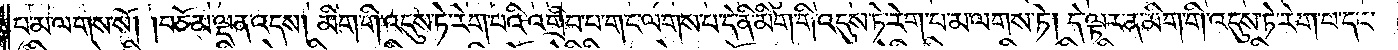པ་མ་ལགས་སོ། །བཅོམ་ལྡན་འདས། མིག་གི་འདུས་ཏེ་རེག་པའི་འགྲིབ་པ་གང་ལགས་པ་དེ་ནི་མིག་གི་འདུས་ཏེ་རེག་པ་མ་ལགས་ཏེ། དེ་ལྟར་ན་མིག་གི་འདུས་ཏེ་རེག་པ་དང་
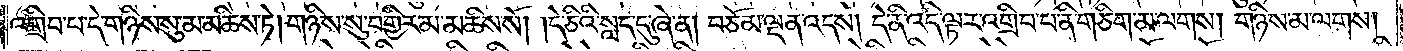འགྲིབ་པ་དེ་གཉིས་སུ་མ་མཆིས་ཏེ། གཉིས་སུ་བགྱིར་མ་མཆིས་སོ། །དེ་ཅིའི་སླད་དུ་ཞེ་ན། བཅོམ་ལྡན་འདས། དེ་ནི་འདི་ལྟར་འགྲིབ་པ་ནི་གཅིག་མ་ལགས། གཉིས་མ་ལགས།
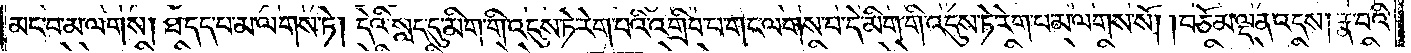མང་བ་མ་ལགས། ཐ་དད་པ་མ་ལགས་ཏེ། དེའི་སླད་དུ་མིག་གི་འདུས་ཏེ་རེག་པའི་འགྲིབ་པ་གང་ལགས་པ་དེ་མིག་གི་འདུས་ཏེ་རེག་པ་མ་ལགས་སོ། །བཅོམ་ལྡན་འདས། རྣ་བའི་
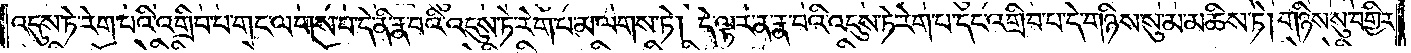འདུས་ཏེ་རེག་པའི་འགྲིབ་པ་གང་ལགས་པ་དེ་ནི་རྣ་བའི་འདུས་ཏེ་རེག་པ་མ་ལགས་ཏེ། དེ་ལྟར་ན་རྣ་བའི་འདུས་ཏེ་རེག་པ་དང་འགྲིབ་པ་དེ་གཉིས་སུ་མ་མཆིས་ཏེ། གཉིས་སུ་བགྱིར་
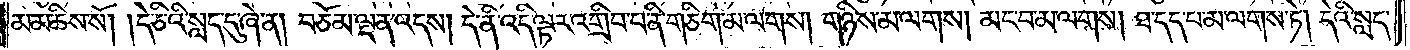མ་མཆིས་སོ། །དེ་ཅིའི་སླད་དུ་ཞེ་ན། བཅོམ་ལྡན་འདས། དེ་ནི་འདི་ལྟར་འགྲིབ་པ་ནི་གཅིག་མ་ལགས། གཉིས་མ་ལགས། མང་བ་མ་ལགས། ཐ་དད་པ་མ་ལགས་ཏེ། དེའི་སླད་
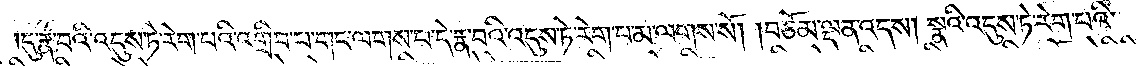དུ་རྣ་བའི་འདུས་ཏེ་རེག་པའི་འགྲིབ་པ་གང་ལགས་པ་དེ་རྣ་བའི་འདུས་ཏེ་རེག་པ་མ་ལགས་སོ། །བཅོམ་ལྡན་འདས། སྣའི་འདུས་ཏེ་རེག་པའི་
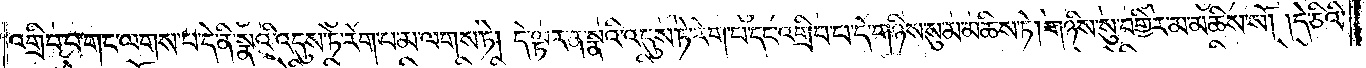འགྲིབ་པ་གང་ལགས་པ་དེ་ནི་སྣའི་འདུས་ཏེ་རེག་པ་མ་ལགས་ཏེ། དེ་ལྟར་ན་སྣའི་འདུས་ཏེ་རེག་པ་དང་འགྲིབ་པ་དེ་གཉིས་སུ་མ་མཆིས་ཏེ། གཉིས་སུ་བགྱིར་མ་མཆིས་སོ། །དེ་ཅིའི་
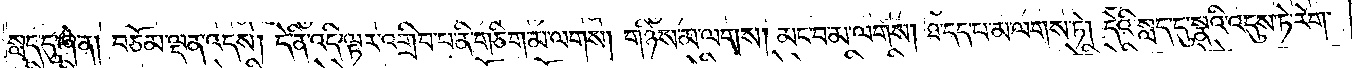སླད་དུ་ཞེ་ན། བཅོམ་ལྡན་འདས། དེ་ནི་འདི་ལྟར་འགྲིབ་པ་ནི་གཅིག་མ་ལགས། གཉིས་མ་ལགས། མང་བ་མ་ལགས། ཐ་དད་པ་མ་ལགས་ཏེ། དེའི་སླད་དུ་སྣའི་འདུས་ཏེ་རེག་
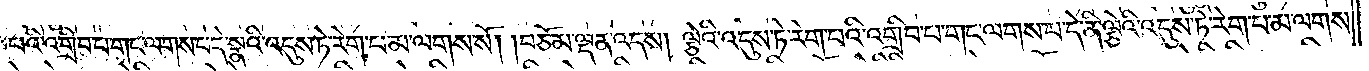པའི་འགྲིབ་པ་གང་ལགས་པ་དེ་སྣའི་འདུས་ཏེ་རེག་པ་མ་ལགས་སོ། ། བཅོམ་ལྡན་འདས། ལྕེའི་འདུས་ཏེ་རེག་པའི་འགྲིབ་པ་གང་ལགས་པ་དེ་ནི་ལྕེའི་འདུས་ཏེ་རེག་པ་མ་ལགས་
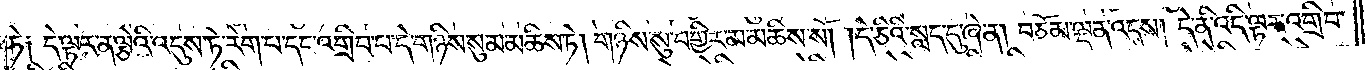ཏེ༑ དེ་ལྟར་ན་ལྕེའི་འདུས་ཏེ་རེག་པ་དང་འགྲིབ་པ་དེ་གཉིས་སུ་མ་མཆིས་ཏེ། གཉིས་སུ་བགྱིར་མ་མཆིས་སོ། །དེ་ཅིའི་སླད་དུ་ཞེ་ན། བཅོམ་ལྡན་འདས། དེ་ནི་འདི་ལྟར་འགྲིབ་
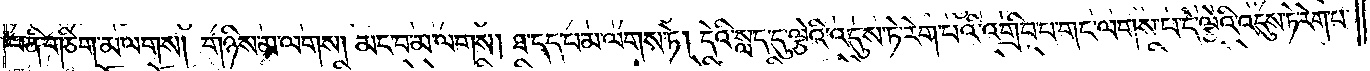པ་ནི་གཅིག་མ་ལགས། གཉིས་མ་ལགས། མང་བ་མ་ལགས། ཐ་དད་པ་མ་ལགས་ཏེ། དེའི་སླད་དུ་ལྕེའི་འདུས་ཏེ་རེག་པའི་འགྲིབ་པ་གང་ལགས་པ་དེ་ལྕེའི་འདུས་ཏེ་རེག་པ་
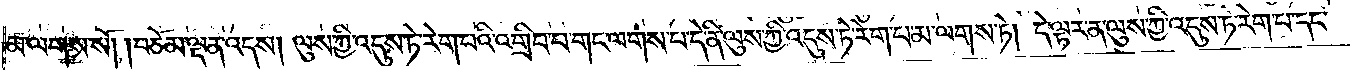མ་ལགས་སོ། །བཅོམ་ལྡན་འདས། ལུས་ཀྱི་འདུས་ཏེ་རེག་པའི་འགྲིབ་པ་གང་ལགས་པ་དེ་ནི་ལུས་ཀྱི་འདུས་ཏེ་རེག་པ་མ་ལགས་ཏེ། དེ་ལྟར་ན་ལུས་ཀྱི་འདུས་ཏེ་རེག་པ་དང་
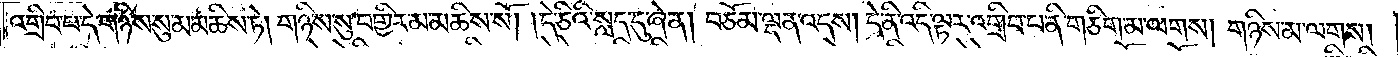འགྲིབ་པ་དེ་གཉིས་སུ་མ་མཆིས་ཏེ། གཉིས་སུ་བགྱིར་མ་མཆིས་སོ། །དེ་ཅིའི་སླད་དུ་ཞེ་ན། བཅོམ་ལྡན་འདས། དེ་ནི་འདི་ལྟར་འགྲིབ་པ་ནི་གཅིག་མ་ལགས། གཉིས་མ་ལགས།
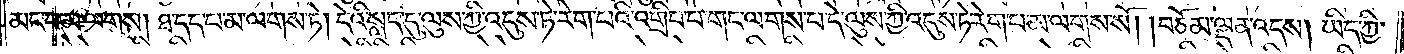མང་བ་མ་ལགས། ཐ་དད་པ་མ་ལགས་ཏེ། དེའི་སླད་དུ་ལུས་ཀྱི་འདུས་ཏེ་རེག་པའི་འགྲིབ་པ་གང་ལགས་པ་དེ་ལུས་ཀྱི་འདུས་ཏེ་རེག་པ་མ་ལགས་སོ། །བཅོམ་ལྡན་འདས། ཡིད་ཀྱི་
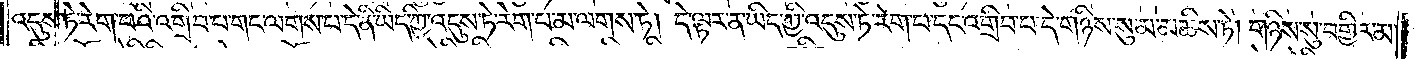འདུས་ཏེ་རེག་པའི་འགྲིབ་པ་གང་ལགས་པ་དེ་ནི་ཡིད་ཀྱི་འདུས་ཏེ་རེག་པ་མ་ལགས་ཏེ། དེ་ལྟར་ན་ཡིད་ཀྱི་འདུས་ཏེ་རེག་པ་དང་འགྲིབ་པ་དེ་གཉིས་སུ་མ་མཆིས་ཏེ། གཉིས་སུ་བགྱིར་མ་
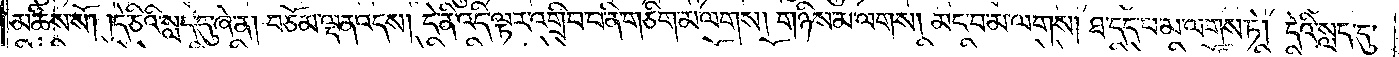མཆིས་སོ། །དེ་ཅིའི་སླད་དུ་ཞེ་ན། བཅོམ་ལྡན་འདས། དེ་ནི་འདི་ལྟར་འགྲིབ་པ་ནི་གཅིག་མ་ལགས། གཉིས་མ་ལགས། མང་བ་མ་ལགས། ཐ་དད་པ་མ་ལགས་ཏེ། དེའི་སླད་དུ་
